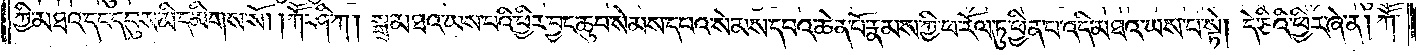ཀྱི་མཐའ་དང་དབུས་མི་དམིགས་སོ། །ཀཽ་ཤི་ཀ། སྒྲ་མཐའ་ཡས་པའི་ཕྱིར་བྱང་ཆུབ་སེམས་དཔའ་སེམས་དཔའ་ཆེན་པོ་རྣམས་ཀྱི་ཕ་རོལ་ཏུ་ཕྱིན་པ་འདི་མཐའ་ཡས་པ་སྟེ། དེ་ཅིའི་ཕྱིར་ཞེ་ན། ཀཽ་
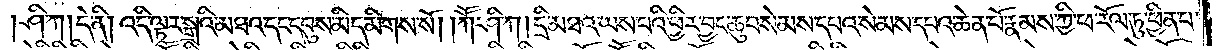ཤི་ཀ། དེ་ནི། འདི་ལྟར་སྒྲའི་མཐའ་དང་དབུས་མི་དམིགས་སོ། །ཀཽ་ཤི་ཀ། དྲི་མཐའ་ཡས་པའི་ཕྱིར་བྱང་ཆུབ་སེམས་དཔའ་སེམས་དཔའ་ཆེན་པོ་རྣམས་ཀྱི་ཕ་རོལ་ཏུ་ཕྱིན་པ་
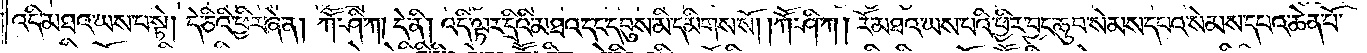འདི་མཐའ་ཡས་པ་སྟེ། དེ་ཅིའི་ཕྱིར་ཞེ་ན། ཀཽ་ཤི་ཀ། དེ་ནི། འདི་ལྟར་དྲིའི་མཐའ་དང་དབུས་མི་དམིགས་སོ། །ཀཽ་ཤི་ཀ། རོ་མཐའ་ཡས་པའི་ཕྱིར་བྱང་ཆུབ་སེམས་དཔའ་སེམས་དཔའ་ཆེན་པོ་
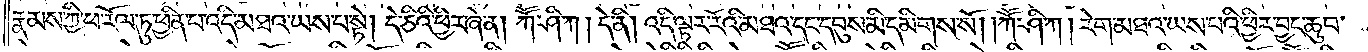རྣམས་ཀྱི་ཕ་རོལ་ཏུ་ཕྱིན་པ་འདི་མཐའ་ཡས་པ་སྟེ། དེ་ཅིའི་ཕྱིར་ཞེ་ན། ཀཽ་ཤི་ཀ །དེ་ནི། འདི་ལྟར་རོའི་མཐའ་དང་དབུས་མི་དམིགས་སོ། །ཀཽ་ཤི་ཀ། རེག་མཐའ་ཡས་པའི་ཕྱིར་བྱང་ཆུབ་
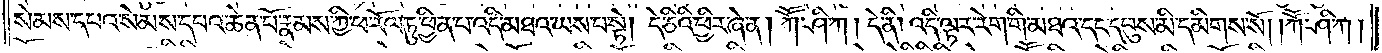སེམས་དཔའ་སེམས་དཔའ་ཆེན་པོ་རྣམས་ཀྱི་ཕ་རོལ་ཏུ་ཕྱིན་པ་འདི་མཐའ་ཡས་པ་སྟེ། དེ་ཅིའི་ཕྱིར་ཞེ་ན། ཀཽ་ཤི་ཀ། དེ་ནི། འདི་ལྟར་རེག་གི་མཐའ་དང་དབུས་མི་དམིགས་སོ། །ཀཽ་ཤི་ཀ།
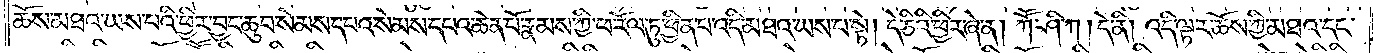ཆོས་མཐའ་ཡས་པའི་ཕྱིར་བྱང་ཆུབ་སེམས་དཔའ་སེམས་དཔའ་ཆེན་པོ་རྣམས་ཀྱི་ཕ་རོལ་ཏུ་ཕྱིན་པ་འདི་མཐའ་ཡས་པ་སྟེ། དེ་ཅིའི་ཕྱིར་ཞེ་ན། ཀཽ་ཤི་ཀ། དེ་ནི། འདི་ལྟར་ཆོས་ཀྱི་མཐའ་དང་
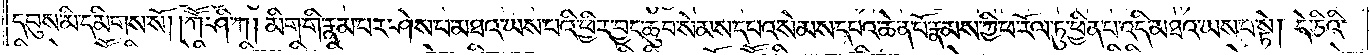དབུས་མི་དམིགས་སོ། །ཀཽ་ཤི་ཀ། མིག་གི་རྣམ་པར་ཤེས་པ་མཐའ་ཡས་པའི་ཕྱིར་བྱང་ཆུབ་སེམས་དཔའ་སེམས་དཔའ་ཆེན་པོ་རྣམས་ཀྱི་ཕ་རོལ་ཏུ་ཕྱིན་པ་འདི་མཐའ་ཡས་པ་སྟེ། དེ་ཅིའི་
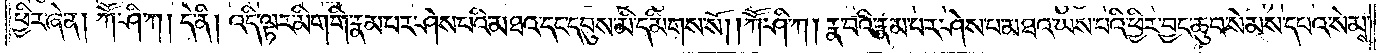ཕྱིར་ཞེ་ན། ཀཽ་ཤི་ཀ། དེ་ནི། འདི་ལྟར་མིག་གི་རྣམ་པར་ཤེས་པའི་མཐའ་དང་དབུས་མི་དམིགས་སོ། །ཀཽ་ཤི་ཀ། རྣ་བའི་རྣམ་པར་ཤེས་པ་མཐའ་ཡས་པའི་ཕྱིར་བྱང་ཆུབ་སེམས་དཔའ་སེམས་
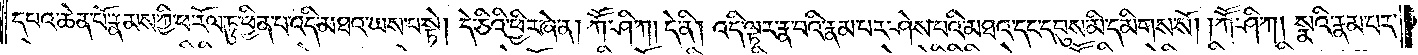དཔའ་ཆེན་པོ་རྣམས་ཀྱི་ཕ་རོལ་ཏུ་ཕྱིན་པ་འདི་མཐའ་ཡས་པ་སྟེ། དེ་ཅིའི་ཕྱིར་ཞེ་ན། ཀོ་ཤི་ཀ། དེ་ནི། འདི་ལྟར་རྣ་བའི་རྣམ་པར་ཤེས་པའི་མཐའ་དང་དབུས་མི་དམིགས་སོ། །ཀཽ་ཤི་ཀ། སྣའི་རྣམ་པར་
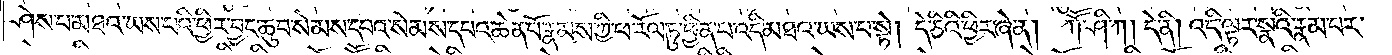ཤེས་པ་མཐའ་ཡས་པའི་ཕྱིར་བྱང་ཆུབ་སེམས་དཔའ་སེམས་དཔའ་ཆེན་པོ་རྣམས་ཀྱི་ཕ་རོལ་ཏུ་ཕྱིན་པ་འདི་མཐའ་ཡས་པ་སྟེ། དེ་ཅིའི་ཕྱིར་ཞེ་ན། ཀཽ་ཤི་ཀ། དེ་ནི། འདི་ལྟར་སྣའི་རྣམ་པར་
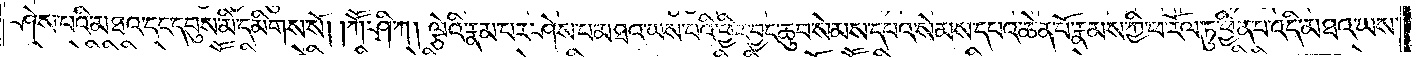ཤེས་པའི་མཐའ་དང་དབུས་མི་དམིགས་སོ། །ཀཽ་ཤི་ཀ། ལྕེའི་རྣམ་པར་ཤེས་པ་མཐའ་ཡས་པའི་ཕྱིར་བྱང་ཆུབ་སེམས་དཔའ་སེམས་དཔའ་ཆེན་པོ་རྣམས་ཀྱི་ཕ་རོལ་ཏུ་ཕྱིན་པ་འདི་མཐའ་ཡས་
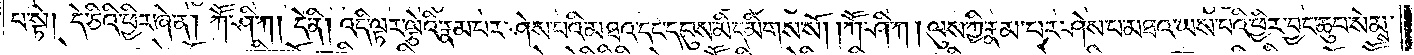པ་སྟེ། དེ་ཅིའི་ཕྱིར་ཞེ་ན། ཀཽ་ཤི་ཀ། དེ་ནི། འདི་ལྟར་ལྕེའི་རྣམ་པར་ཤེས་པའི་མཐའ་དང་དབུས་མི་དམིགས་སོ། །ཀཽ་ཤི་ཀ། ལུས་ཀྱི་རྣམ་པར་ཤེས་པ་མཐའ་ཡས་པའི་ཕྱིར་བྱང་ཆུབ་སེམས་
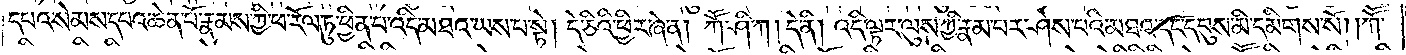དཔའ་སེམས་དཔའ་ཆེན་པོ་རྣམས་ཀྱི་ཕ་རོལ་ཏུ་ཕྱིན་པ་འདི་མཐའ་ཡས་པ་སྟེ། དེ་ཅིའི་ཕྱིར་ཞེ་ན། ཀཽ་ཤི་ཀ །དེ་ནི། འདི་ལྟར་ལུས་ཀྱི་རྣམ་པར་ཤེས་པའི་མཐའ་དང་དབུས་མི་དམིགས་སོ། །ཀཽ་
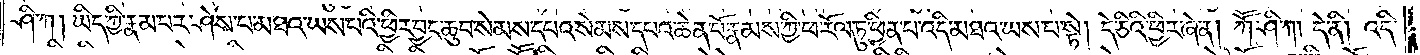ཤི་ཀ། ཡིད་ཀྱི་རྣམ་པར་ཤེས་པ་མཐའ་ཡས་པའི་ཕྱིར་བྱང་ཆུབ་སེམས་དཔའ་སེམས་དཔའ་ཆེན་པོ་རྣམས་ཀྱི་ཕ་རོལ་ཏུ་ཕྱིན་པ་འདི་མཐའ་ཡས་པ་སྟེ། དེ་ཅིའི་ཕྱིར་ཞེ་ན། ཀཽ་ཤི་ཀ། དེ་ནི། འདི་
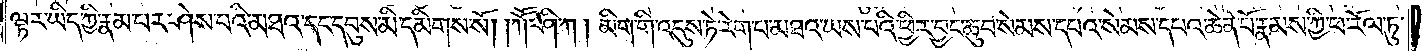ལྟར་ཡིད་ཀྱི་རྣམ་པར་ཤེས་པའི་མཐའ་དང་དབུས་མི་དམིགས་སོ། །ཀཽ་ཤི་ཀ། མིག་གི་འདུས་ཏེ་རེག་པ་མཐའ་ཡས་པའི་ཕྱིར་བྱང་ཆུབ་སེམས་དཔའ་སེམས་དཔའ་ཆེན་པོ་རྣམས་ཀྱི་ཕ་རོལ་ཏུ་
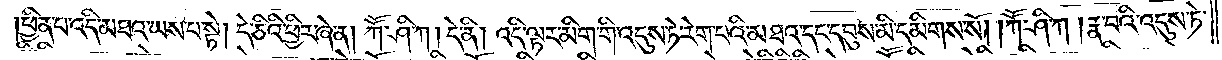ཕྱིན་པ་འདི་མཐའ་ཡས་པ་སྟེ། དེ་ཅིའི་ཕྱིར་ཞེ་ན། ཀཽ་ཤི་ཀ། དེ་ནི། འདི་ལྟར་མིག་གི་འདུས་ཏེ་རེག་པའི་མཐའ་དང་དབུས་མི་དམིགས་སོ། །ཀཽ་ཤི་ཀ། རྣ་བའི་འདུས་ཏེ་
